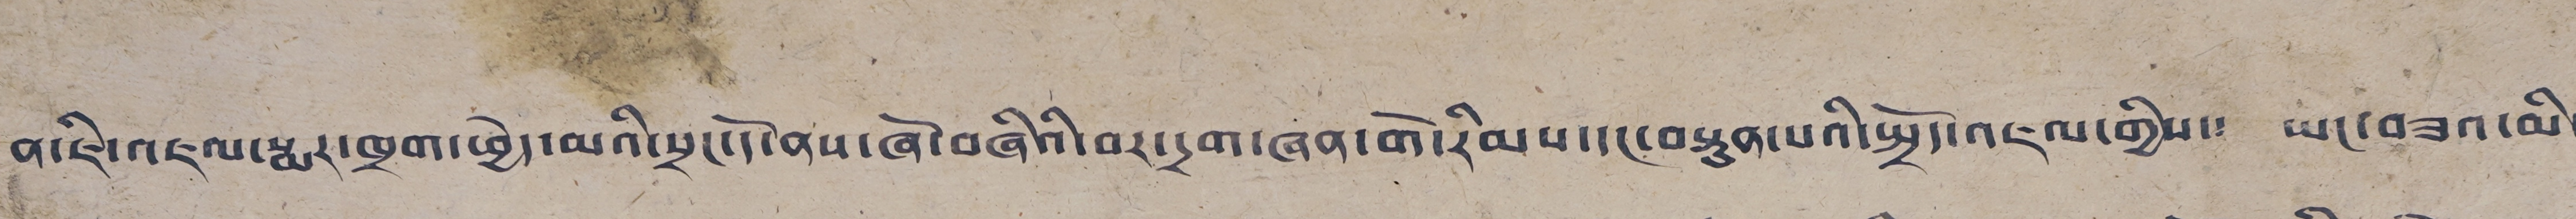ན་ཇི་འཇལ་སྨར་ཁྲག་ཕྱེད་མའི་སྲང་དོ་ནས་ཞོ་བཞིའི་བར་དྲག་ཞན་གོ་རིམས་དང་བསྟུན་པའི་སྤྲོད་འཇལ་གྱིས་༴ ཡང་བཟའ་མི་
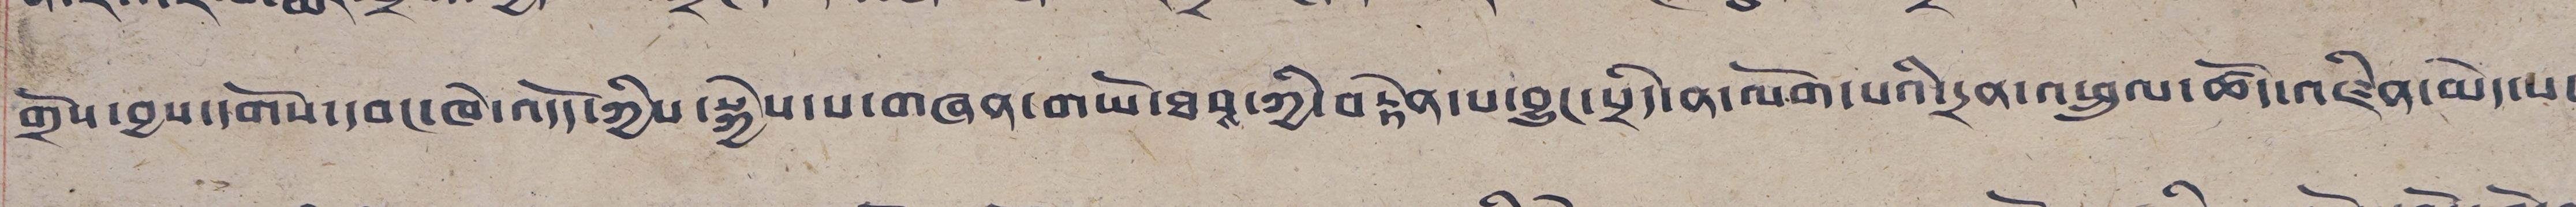གྲོས་བྱས་དགོས་དབང་ཁེ་འདོད་ཀྱིས་སྐྱེས་པ་གཞན་གཡོ་ཐབས་ཀྱི་བརྟེན་པ་བྱུང་སྲིད་ན་ལོག་པའི་དྲན་འཕྲུལ་ཚོད་འཛིན་མེད་པ་
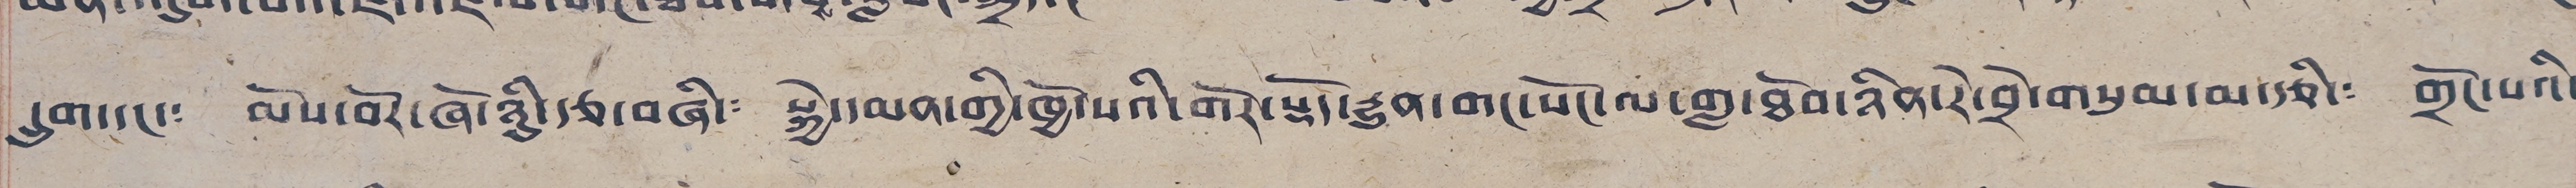དྲུག་དང་༴ མོས་བོར་ཞོ་ཉིུ་རྩ་བཞི་༴ སྐྱེ་མན་གྱི་ཁྱོ་པའི་གོར་སྟོད་རྒྱུན་གང་སོང་ལ་གླ་ཐོབ་ཉིན་རེ་བྲེ་གསུམ་མ་རྩི་༴ གྲོང་པའི་
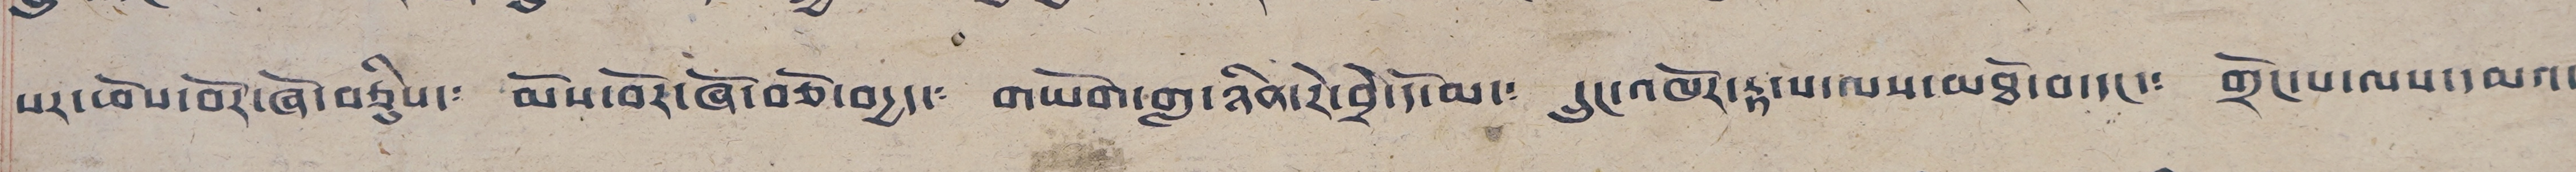པར་ཕོས་བོར་ཞོ་བཅིུས་༴ མོས་བོར་ཞོ་བཅོ་བདྱད་༴ གཡོག་གླ་ཉིན་རེ་བྲེ་དོ་མ་༴ དྲུང་འཁོར་རྟ་པ་ལས་མཐོ་བ་དང་༴ གྲོང་པ་ལས་དམའ་
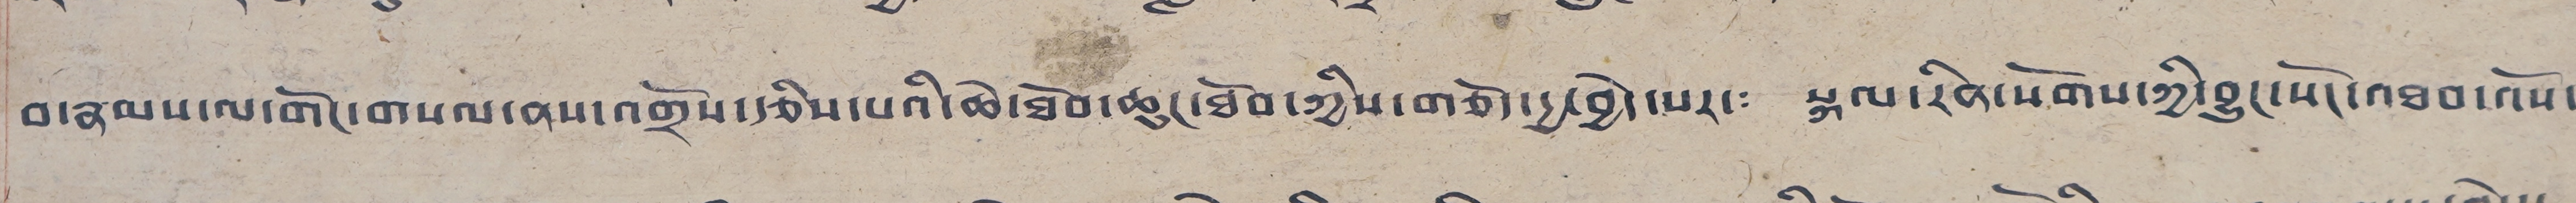བ་རྣམས་ལ་གོང་གསལ་ནས་འགྲོས་རྩིས་པའི་ཆེ་ཐོབ་ཆུང་ཐོབ་ཀྱིས་གཅོད་དྱ་བྱེ་པར་༴ སྐལ་རིན་སོགས་ཀྱི་བྱུང་སོང་འཐབ་ལོས་
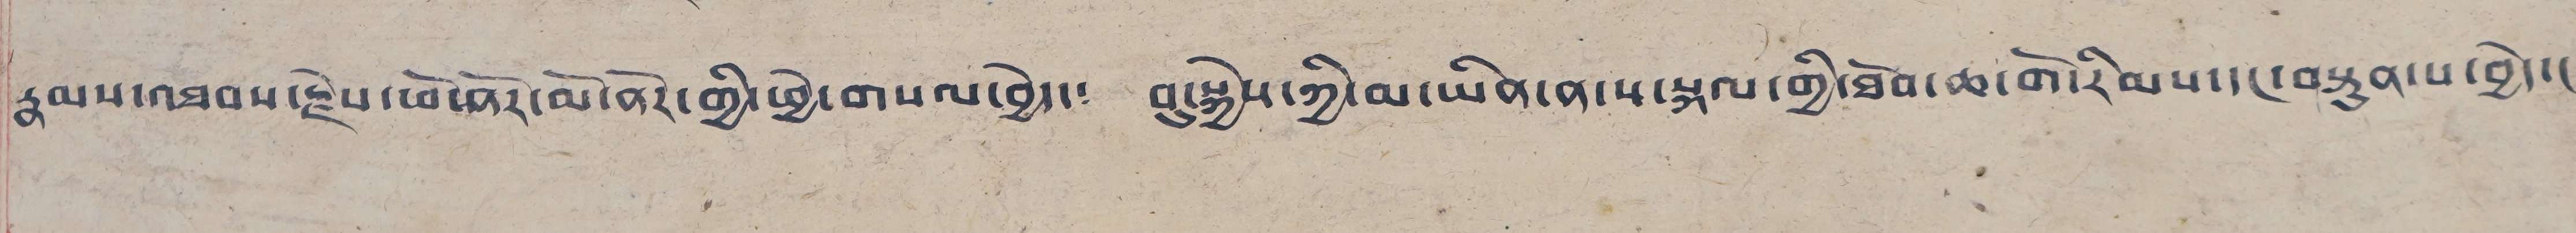རྣམས་འཐབས་རྗེས་ཕོ་ནོར་མོ་ནོར་གྱི་ཕྱེ་གསལ་བྱེད་༴ བུ་སྐྱེས་ཀྱི་མ་ཡིན་ན་ས་སྐལ་གྱི་ཐོབ་ཆ་གོ་རིམས་དང་བསྟུན་པ་བྱེད།
